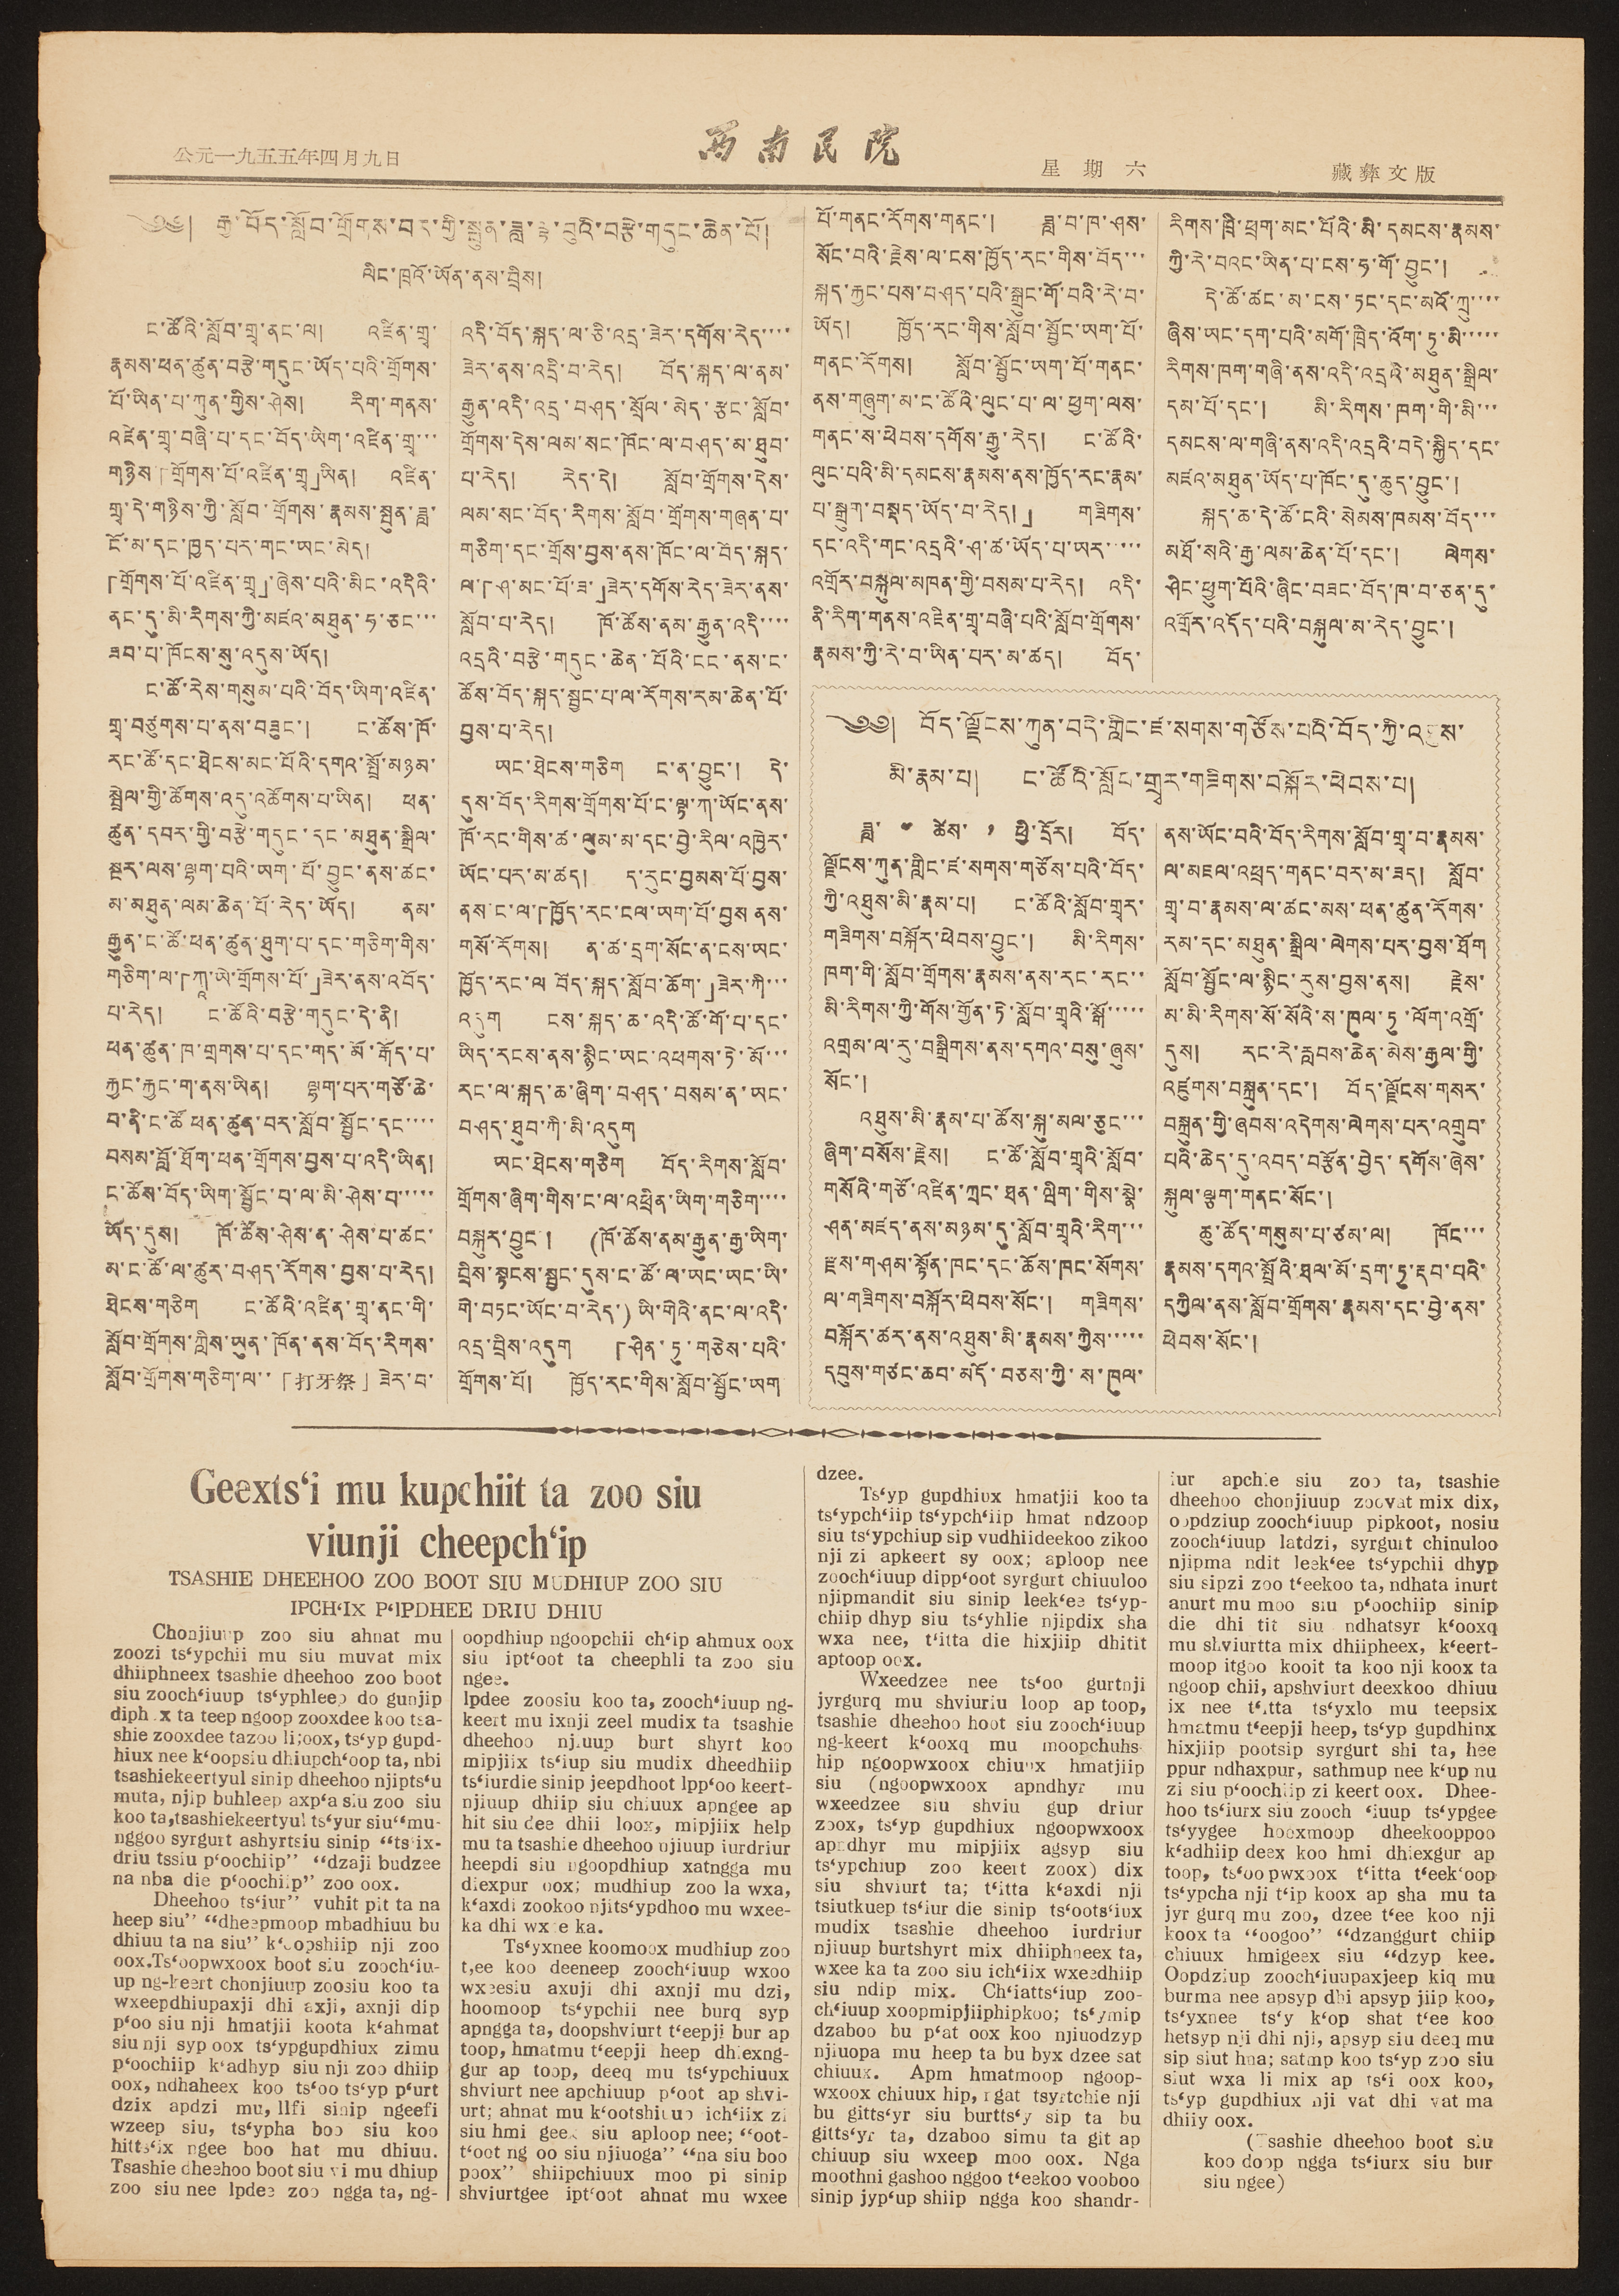公元一九五五年四月九日 西南民院 星期六 藏彝文版
༄༅། རྒྱ་བོད་སློབ་གྲོགས་བར་གྱི་སྤུན་ཟླ་ལྟ་བུའི་བརྩེ་གདུང་ཆེན་པོ།
ལིང་ཁྲའོ་ཡོན་ནས་བྲིས།
ང་ཚོའི་སློབ་གྲྭ་ནང་ལ། འཛིན་གྲྭ་
རྣམས་ཕན་ཚུན་བརྩེ་གདུང་ཡོད་པའི་གྲོགས་
པོ་ཡིན་པ་ཀུན་གྱིས་ཤེས། རིག་གནས་
འཛིན་གྲྭ་བཞི་པ་དང་བོད་ཡིག་འཛིན་གྲྭ་་་
གཉིས་「གྲོགས་པོ་འཛིན་གྲྭ」ཡིན། འཛིན་
གྲྭ་དེ་གཉིས་ཀྱི་སློབ་གྲོགས་རྣམས་སྤུན་ཟླ་
ངོ་མ་དང་ཁྱད་པར་གང་ཡང་མེད།
「གྲོགས་པོ་འཛིན་གྲྭ」་ཞེས་པའི་མིང་འདིའི་
ནང་དུ་མི་རིགས་ཀྱི་མཛའ་མཐུན་ཧ་ཅང་་་
ཟབ་པ་ཁོངས་སུ་འདུས་ཡོད།
ང་ཚོ་རེས་གསུམ་པའི་བོད་ཡིག་འཛིན་
གྲྭ་བཙུགས་པ་ནས་བཟུང་། ང་ཚོས་ཁོ་
རང་ཚོ་དང་ཐེངས་མང་པོའི་དགའ་སྤྲོ་མཉམ་
སྦྲེལ་གྱི་ཚོགས་འདུ་འཚོགས་པ་ཡིན། ཕན་
ཚུན་དབར་གྱི་བརྩེ་གདུང་དང་མཐུན་སྒྲིལ་
སྔར་ལས་ལྷག་པའི་ཡག་པོ་བྱུང་ནས་ཚང་
མ་མཐུན་ལམ་ཆེན་པོ་རེད་ཡོད། ནམ་
རྒྱུན་ང་ཚོ་ཕན་ཚུན་ཐུག་པ་དང་གཅིག་གིས་
གཅིག་ལ་「ཀཱ་ཡེ་གྲོགས་པོ་」ཟེར་ནས་འབོད་
པ་རེད། ང་ཚོའི་བརྩེ་གདུང་དེ་ནི།
ཕན་ཚུན་ཁ་གྲགས་པ་དང་གད་མོ་རྒོད་པ་
རྐྱང་རྐྱང་ག་ནས་ཡིན། ལྷག་པར་གཙོ་ཆེ་
བ་ནི་ང་ཚོ ཕན་ཚུན་བར་སློབ་སྦྱོང་དང་་་་
བསམ་བློ་ཐོག་ཕན་གྲོགས་བྱས་པ་འདི་ཡིན།
ང་ཚོས་བོད་ཡིག་སྦྱོང་བ་ལ་མི་ཤེས་པ་་་་་
ཡོད་དུས། ཁོ་ཚོས་ཤེས་ན་ཤེས་པ་ཚང་
མ་ང་ཚོ་ལ་ཚུར་བཤད་རོགས་བྱས་པ་རེད།
ཐེངས་གཅིག ང་ཚོའི་འཛིན་གྲྭ་ནང་གི་
སློབ་གྲོགས་ཀླིས་ཡུན་ཁོན་ནས་བོད་རིགས་
སློབ་གྲོགས་གཅིག་ལ་་「打牙祭」 ཟེར་བ་
འདི་བོད་སྐད་ལ་ཅི་འདྲ་ཟེར་དགོས་རེད་་་་
ཟེར་ནས་འདྲི་བ་རེད། བོད་སྐད་ལ་ནམ་
རྒྱུན་འདི་འདྲ་བཤད་སྲོལ་མེད་རྩང་སློབ་
གྲོགས་དེས་ལམ་སུང་ཁོང་ལ་བཤད་མ་ཐུབ་
པ་རེད། རེད་དེ། སློབ་གྲོགས་དེས་
ལམ་སང་བོད་རིགས་སློབ་གྲོགས་གཞན་པ་
གཅིག་དང་གྲོས་བྱས་ནས་ཁོང་ལ་བོད་སྐད་
ལ་「ཤ་མང་པོ་ཟ་」ཟེར་དགོས་རེད་ཟེར་ནས་
སློབ་པ་རེད། ཁོ་ཚོས་ནམ་རྒྱུན་འདི་་་་
འདྲའི་བརྩེ་གདུང་ཆེན་པོའི་ངང་ནས་ང་
ཚོས་བོད་སྐད་སྦྱང་པ་ལ་རོགས་རམ་ཆེན་པོ་
བྱས་པ་རེད།
ཡང་ཐེངས་གཅིག ང་ན་བྱུང་། དེ་
དུས་བོད་རིགས་གྲོགས་པོ་ང་ལྟ་ཀ་ཡོང་ནས་
ཁོ་རང་གིས་ཚ་ལུམ་མ་དང་བྱེ་རིལ་འཁྱེར་
ཡོང་པར་མ་ཚད། ད་རུང་བྱམས་པོ་བྱས་
ནས་ང་ལ་「ཁྱོད་རང་ངལ་ཡག་པོ་བྱས ནས་
གསོ་རོགས། ན་ཚ་དྲག་སོང་ན་ངས་ཡང་
ཁྱོད་རང་ལ བོད་སྐད་སློབ་ཆོག་」ཟེར་ཀི་་་
འདུག ངས་སྐད་ཆ་འདི་ཚོ་གོ་པ་དང་
ཡིད་རངས་ནས་སྙིང་ཡང་འཕགས་ཏེ་མོ་་་་
རང་ལ་སྐད་ཆ་ཞིག་བཤད་བསམ་ན་ཡང་
བཤད་ཐུབ་ཀི་མི་འདུག
ཡང་ཐེངས་གཅིག བོད་རིགས་སློབ་
གྲོགས་ཞིག་གིས་ང་ལ་འཕྲིན་ཡིག་གཅིག་་་་
བསྐུར་བྱུང་། (ཁོ་ཚོས་ནམ་རྒྱུན་རྒྱ་ཡིག་
བྲིས་སྟངས་སྦྱང་དུས་ང་ཚོ་ལ་ཡང་ཡང་ཡི་
གེ་བཏང་ཡོང་བ་རེད་) ཡི་གེའི་ནང་ལ་འདི་
འདྲ་བྲིས་འདུག 「ཤིན་ཏུ་གཅེས་པའི་
གྲོགས་པོ། ཁྱོད་རང་གིས་སློབ་སྦྱོང་ཡག་
པོ་གནང་རོགས་གནང་། ཟླ་བ་ཁ་ཤས་
སོང་བའི་རྗེས་ལ་ངས་ཁྱོད་རང་གིས་བོད་་་
སྐད་རྐྱང་པས་བཤད་པའི་སྒྲུང་གོ་བའི་རེ་བ་
ཡོད། ཁྱོད་རང་གིས་སློབ་སྦྱོང་ཡག་པོ་
གནང་རོགས། སློབ་སྦྱོང་ཡག་པོ་གནང་
ནས་གཞུག་མ་ང་ཚོའི་ལུང་པ་ལ་ཕྱག་ལས་
གནང་ས་ཕེབས་དགོས་རྒྱུ་རེད། ང་ཚོའི་
ལུང་པའི་མི་དམངས་རྣམས་ནས་ཁྱོད་རང་རྣམ་
པ་སྒྲུག་བསྡད་ཡོད་པ་རེད།」 གཟིགས་
དང་འདི་གང་འདྲའི་ཤ་ཚ་ཡོད་པ་ཡར་་་་་
འགྲོར་བསྐུལ་མཁན་གྱི་བསམ་པ་རེད། འདི་
ནི་རིག་གནས་འཛིན་གྲྭ་བཞི་པའི་སློབ་གྲོགས་
རྣམས་ཀྱི་རེ་བ་ཡིན་པར་མ་ཚད། བོད་
རིགས་ཁྲི་ཕྲག་མང་པོའི་མི་དམངས་རྣམས་
ཀྱི་རེ་བའང་ཡིན་པ་ངས་ཧ་གོ་བྱུང་།
དེ་ཚོ་ཚང་མ་ངས་ཏང་དང་མའོ་ཀྲུ་་་་
ཞིས་ཡང་དག་པའི་མགོ་ཁྲིད་འོག་ཏུ་མི་་་་་
རིགས་ཁག་གཞི་ནས་འདི་འདྲའི་མཐུན་སྒྲིལ་
དམ་པོ་དང་། མི་རིགས་ཁག་གི་མི་་་
དམངས་ལ་གཞི་ནས་འདི་འདྲའི་བདེ་སྐྱིད་དང་།
མཛའ་མཐུན་ཡོད་པ་ཁོང་དུ་ཆུད་བྱུང་།
སྐད་ཆ་དེ་ཚོ་ངའི་སེམས་ཁམས་བོད་་་
མཐོ་སའི་རྒྱ་ལམ་ཆེན་པོ་དང་། ལེགས་
ཤིང་ཕྱུག་པོའི་ཞིང་བཟང་བོད་ཁ་བ་ཅན་དུ་
འགྲོར་འདོད་པའི་བསྐུལ་མ་རེད་བྱུང་།
༄༅། བོད་ལྗོངས་ཀུན་བདེ་གླིང་ཛ་སགས་གཙོས་པའི་བོད་ཀྱི་འཐུས་
མི་རྣམ་པ། ང་ཚོའི་སློབ་གྲྭར་གཟིགས་བསྐོར་ཕེབས་པ།
ཟླ་ ༤ ཚེས་ ༡ ཕྱི་དྲོར། བོད་
ལྗོངས་ཀུན་གླིང་ཛ་སགས་གཙོས་པའི་བོད་
ཀྱི་འཐུས་མི་རྣམ་པ། ང་ཚོའི་སློབ་གྲྭར་
གཟིགས་བསྐོར་ཕེབས་བྱུང་། མི་རིགས་
ཁག་གི་སློབ་གྲོགས་རྣམས་ནས་རང་རང་་
མི་རིགས་ཀྱི་གོས་གྱོན་ཏེ་སློབ་གྲྭའི་སྒོ་་་་་
འགྲམ་ལ་རུ་བསྒྲིགས་ནས་དགའ་བསུ་ཞུས་
སོང་།
འཐུས་མི་རྣམ་པ་ཚོས་སྐུ་མལ་ཅུང་་་
ཞིག་བསོས་རྗེས། ང་ཚོ་སློབ་གྲྭའི་སློབ་
གསོའི་གཙོ་འཛིན་ཀྲང་ཐན་ཝིག་གིས་སྣེ་
ཤན་མཛད་ནས་མཉམ་དུ་སློབ་གྲྭའི་རིག་་་
རྫས་གཤམ་སྟོན་ཁང་དང་ཆོས་ཁང་སོགས་
ལ་གཟིགས་བསྐོར་ཕེབས་སོང་། གཟིགས་
བསྐོར་ཚར་ནས་འཐུས་མི་རྣམས་ཀྱིས་་་་་
དབུས་གཙང་ཆབ་མདོ་བཅས་ཀྱི་ས་ཁུལ་
ནས་ཡོང་བའི་བོད་རིགས་སློབ་གྲྭ་བ་རྣམས་
ལ་མཇལ་འཕྲད་གནང་བར་མ་ཟད། སློབ་
གྲྭ་བ་རྣམས་ལ་ཚང་མས་ཕན་ཚུན་རོགས་
རམ་དང་མཐུན་སྒྲིལ་ལེགས་པར་བྱས་ཐོག
སློབ་སྦྱོང་ལ་སྙིང་རུས་བྱས་ནས། རྗེས་
མ་མི་རིགས་སོ་སོའི་ས་ཁུལ་ཏུ་ལོག་འགྲོ་
དུས། རང་རེ་རླབས་ཆེན་མེས་རྒྱལ་གྱི་
འཛུགས་བསྐྲུན་དང་། བོད་ལྗོངས་གསར་
བསྐྲུན་གྱི་ཞབས་འདེགས་ལེགས་པར་འགྲུབ་
པའི་ཆེད་དུ་འབད་བརྩོན་བྱེད་དགོས་ཞེས་
སྐུལ་ལྕག་གནང་སོང་།
ཆུ་ཚོད་གསུམ་པ་ཙམ་ལ། ཁོང་་་
རྣམས་དགའ་སྤྲོའི་ཐལ་མོ་དྲག་ཏུ་རྡབ་པའི་
དཀྱིལ་ནས་སློབ་གྲོགས་རྣམས་དང་བྱེ་ནས་
ཕེབས་སོང་།
Geexts'i mu kupchiit ta zoo siu
Viunji cheepch'ip
TSASHIE DHEEHOO ZOO BOOT SIU MUDHIUP ZOO SIU
IPCH'IX P'IPDHEE DRIU DHIU
Chonjiuup zoo siu ahnat mu
zoozi ts'ypchii mu siu muvat mix
dhiiphneex tsashie dheehoo zoo boot
siu zooch'iuup ts'yphleep do gunjip
diph x ta teep ngoop zooxded koo tsa-
shie zooxdee tazoo li;oox, ts'yp gupd-
hiux nee k'oopsiu dhiupch'oop ta, nbi
tsashiekeertyul sinip dheehoo njipts'u
muta, njip buhleep axp'a siu zoo siu
koo ta,tsashiekeertyul ts'yur siu''mu-
nggoo syrgurt ashyrtsiu sinip "ts'ix-
driu tssiu p'oochiip" "dzaji budzee
na nba die p'oochiip" zoo oox.
Dheehoo ts'jur'' vuhit pit ta na
heep siu'' "dheepmoop mbadhiuu bu
dhiuu ta na siu'' k'oopshiip nji zoo
oox. Ts'oopwxoox boot siu zooch'iu.
up ng-keert chonjiuup zoosiu koo ta
wxeepdhiupaxji dhi axji, axnji dip
p'oo siu pji hmatjii koota k'ahmat
siu nji syp oox ts'ypgupdhiux zimu
p'oochiip k'adhyp siu nji zoo dhiip
oox, ndhaheex koo ts'oo ts'yp p'urt
dzix apdzi mu, llfi sinip ngeefi
wzeep siu, ts'ypha boo siu koo
hitts'ix ngee boo hat mu dhiuu.
Tsashie dheehoo boot siu vi mu dhiup
zoo siu nee Ipdee zoo ngga ta, ng-
oopdhiup ngoopchii ch'ip ahmux oox
siu ipt'oot ta cheephli ta zoo siu
ngee.
Ipdee zoosiu koo ta, zooch'iuup ng-
keert mu ixnji zeel mudix ta tsashie
dheehoo njiuup burt shyrt koo
mipjiix ts'iup siu mudix dheedhiip
ts'iurdie sinip jeepdhoot lpp'oo keert-
njiuup dhiip siu chiuux apngee ap
hit siu dee dhii loox, mipjiix help
mu ta tsashie dheehoo njiuup iurdriur
heepdi siu ngoopdhiup xatngga mu
diexpur oox; mudhiup zoo la wxa,
k'axdi zookoo njits'ypdhoo mu wxee-
ka dhi wxie ka.
Ts'yxnee koomoox mudhiup zoo
t,ee koo deeneep zooch'iuup wxoo
wxeesiu axuji dhi axnji mu dzi,
hoomoop ts'ypchii nee burq syp
apngga ta, doopshviurt t'eepji bur ap
toop, hmatmu t'eepji heep dhiexng-
gur ap toop, deeq mu ts'ypchiuux
shviurt nee apchiuup p'oot ap shvi-
urt; ahnat mu k'ootshiuuo ich'iix zi
siu hmi geex siu aploop nee; "oot-
t'oot ng oo siu njiuoga" "na siu boo
poox" shiipchiuux moo pi sinip
shviurtgee ipt'oot ahnat mu wxee
dzee.
Ts'yp gupdhiux hmatjii koo ta
ts'ypch'iip ts'ypch'iip hmat ndzoop
siu ts'ypchiup sip vudhiideekoo zikoo
nji zi apkeert sy oox; aploop nee
zooch'iuup dipp'oot syrgurt chiuuloo
njipmandit siu sinip leek'ee ts'yp-
chiip dhyp siu ts-yhlie njipdix sha
wxa nee, t'itta die hixjiip dhitit
aptoop oox.
Wxeedzee nee ts'oo gurtnji
jyrgurq mu shviuriu loop ap toop,
tsashie dheehoo hoot siu zooch'iuup
ng-keert k'ooxq mu moopchuhs
hip ngoopwxoox chiuux hmatjiip
siu (ngoopwxoox apndhyr mu
wxeedzee siu shviu gup driur
zoox, ts'yp gupdhiux ngoopwxoox
apndhyr mu mipjiix agsyp siu
ts'ypchiup zoo keert zoox) dix
siu shviurt ta; t'itta k'axdi nji
tsiutkuep ts'iur die sinp ts'oots'iux
mudix tsashie dheehoo iurdriur
njiuup burtshyrt mix dhiiphoeex ta,
wxee ka ta zoo siu ich'iix wxeedhiip
siu ndip mix. Ch'iatts'iup zoo-
ch'iuup xoopmipjiiphipkoo; ts'ymip
dzaboo bu p'at oox koo njiuodzyp
njiuopa mu heep ta bu byx dzee sat
chiuux. Apm hmatmoop ngoop-
wxoox chiuux hip, ngat tsyrtchie nji
bu gitts'yr siu burtts'y sip ta bu
gitts'yr ta, dzaboo simu ta git ap
chiuup siu wxeep moo oox. Nga
moothni gashoo nggoo t'eekoo vooboo
sinip jyp'up shiip ngga koo shandr-
iur apchie siu zoo ta, tsashie
dheehoo chonjiuup zoovat mix dix,
oopdziup zooch'iuup pipkoot, nosiu
zooch'iuup latdzi, syrgut chinuloo
njipma ndit leek'ee ts'ypchii dhyp
siu sipzi zoo t'eekoo ta, ndhata inurt
anurt mu moo siu p'oochiip sinip
die dhi tit siu ndhatsyr k'ooxq
mu shviurtta mix dhiipheex, k'eert-
moop itgoo kooit ta koo nji koox ta
ngoop chii, apshviurt deexkoo dhiuu
ix nee t'itta ts'yxlo mu teepsix
hmatmu t'eepji heep, ts'yp gupdhinx
hixjiip pootsip syrgurt shi ta, hee
ppur ndhaxpur, sathmup nee k'up nu
zi siu p'oochiip zi keert oox. Dhee-
hoo ts'iurx siu zooch 'iuup ts'ypgee
ts'yygee hooxmoop dheekooppoo
K'adhiip deex koo hmi dhiexgur ap
toop, ts'oopwxoox t'itta t'eek'oop
ts'ypcha nji t'ip koox ap sha mu ta
jyr gurq mu zoo, dzee t'ee koo nji
koox ta "oogoo" "dzanggurt chiip
chiuux hmigeex siu "dzyp kee.
Oopdziup zooch'iuupaxjeep kiq mu
burma nee apsyp dhi apsyp kiip koo,
ts'yxnee ts'y k'op shat t'ee koo
hetsyp nji dhi nji, apsyp siu deeq mu
sip siut hna; satmp koo ts'yp zoo siu
siut wxa li mix ap ts'i oox Koo,
ts'yp gupdhiux nji vat dhi vat ma
dhiiy oox.
(Tsashie dheehoo boot siu
koo doop ngga ts'iurx siu bur
siu ngee)
